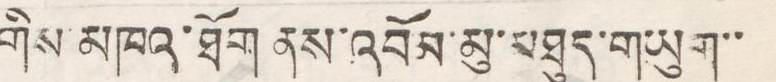གིས མཁའ་ཐོག ནས་འབོམ་མུ་མཐུད་གཡུག་་
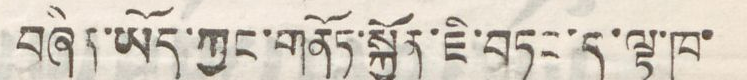བཞིན་ཡོད་ཀྱང་གནོཏ་སྐྱོན་ཇི་བཏང་ད་ལྟ་ཁ་
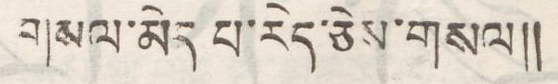གསལ་མེད པ་རེད་ཅེས་གསལ།།
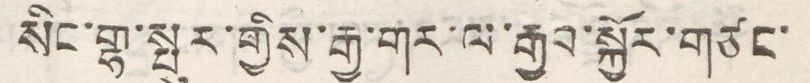སིང་གྷ་སྤུར་གྱིས་རྒྱ་གར་ལ་རྒྱབ་སྐྱོར་གཙང་
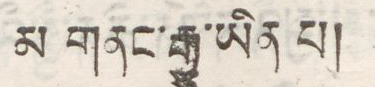མ གནང་རྒྱུ་ཡིན པ།
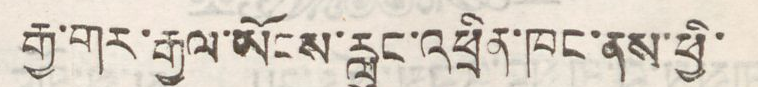རྒྱ་གར་རྒྱལ་ཡོངས་རླུང་འཕྲིན་ཁང་ནས་ཕྱི་
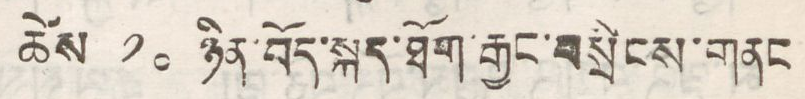ཚེས ༡༠ ཉིན་བོད་སྐད་ཐོག་རྒྱང་བསྲིངས་གནང
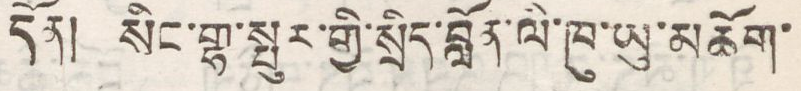དོན། སིང་གྷ་སྤུར་གྱི་སྲིད་བློན་ལི་ཁུ་ཡུ་མཆོག་
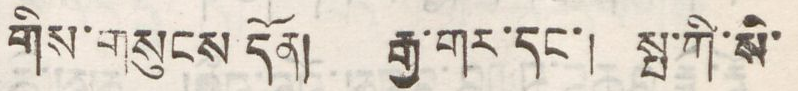གིས་གསུངས དོན། རྒྱ་གར་དང་། སྤ་ཀི་སི་
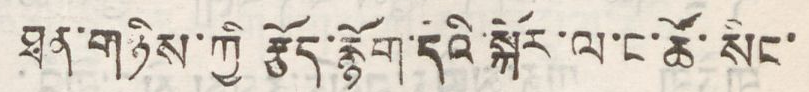ཐན་གཉིས་ཀྱི རྩོད་རྙོག་དེའི་སྐོར་ལ་ང་ཚོ་སིང་
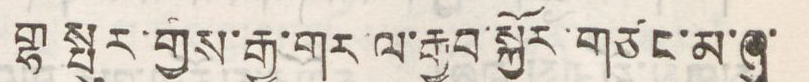གྷ སྤུར་གྱིས་རྒྱ་གར་ལ་རྒྱབ་སྐྱོར་གཙང་མ་ཞུ་
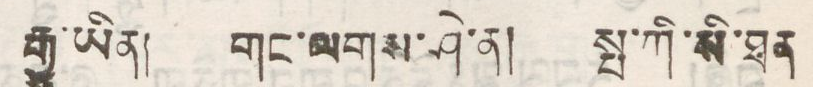རྒྱུ་ཡིན། གང་ལགས་ཤེ་ན། སྤ་ཀི་སི་ཐན
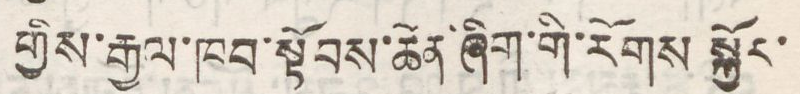གྱིས་རྒྱལ་ཁབ་སྟོབས་ཆེན་ཞིག་གི་རོགས་སྐྱོར་
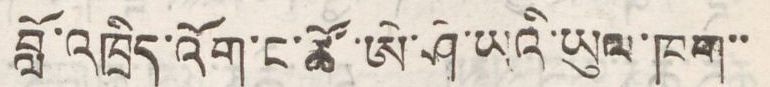བློ་འཁྲིད་འོག་ང་ཚོ་ཨེ་ཤེ་ཡའི་ཡུལ་ཁག་་
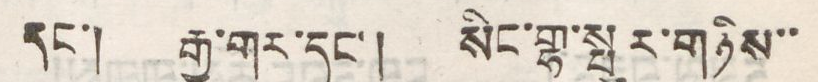དང་། རྒྱ་གར་དང་། སིང་གྷ་སྤུར་གཉིས་་
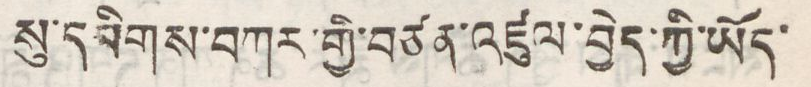སུ་དམིགས་བཀར་གྱི་བཙན་འཛུལ་བྱེད་ཀྱི་ཡོད་
